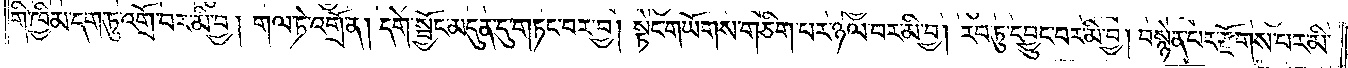གི་ཁྱིམ་དག་ཏུ་འགྲོ་བར་མི་བྱ། གལ་ཏེ་འགྲོ་ན། དགེ་སྦྱོང་མདུན་དུ་གཏང་བར་བྱ། སྟེང་གཡོགས་གཅིག་པར་ཉལ་བར་མི་བྱ། རབ་ཏུ་དབྱུང་བར་མི་བྱ། བསྙེན་པར་རྫོགས་པར་མི་
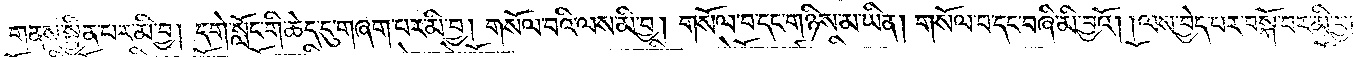བྱ༑ གནས་སྦྱིན་པར་མི་བྱ། དགེ་སློང་གི་ཆེད་དུ་གཞག་པར་མི་བྱ། གསོལ་བའི་ལས་མི་བྱ། གསོལ་བ་དང་གཉིས་མ་ཡིན། གསོལ་བ་དང་བཞི་མི་བྱའོ། །ལས་བྱེད་པར་བསྐོ་བར་མི་བྱ།
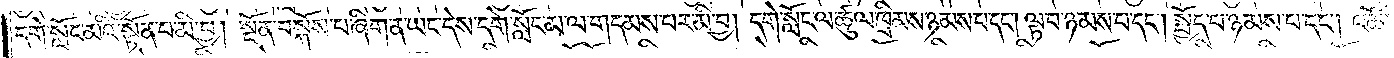དགེ་སློང་མའི་སྟོན་པ་མི་བྱ། སྔོན་བསྐོས་པ་ཞིག་ན་ཡང་དེས་དགེ་སློང་མ་ལ་གདམས་པར་མི་བྱ། དགེ་སློང་ལ་ཚུལ་ཁྲིམས་ཉམས་པ་དང༌། ལྟ་བ་ཉམས་པ་དང༌། སྤྱོད་པ་ཉམས་པ་དང༌། འཚོ་
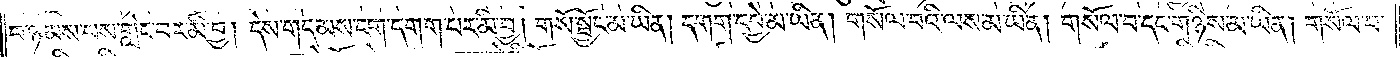བ་ཉམས་པས་གླེང་བར་མི་བྱ། དེས་གདམས་ངག་དགག་པར་མི་བྱ། གསོ་སྦྱོང་མ་ཡིན། དགག་དབྱེ་མ་ཡིན། གསོལ་བའི་ལས་མ་ཡིན། གསོལ་བ་དང་གཉིས་མ་ཡིན། གསོལ་བ་
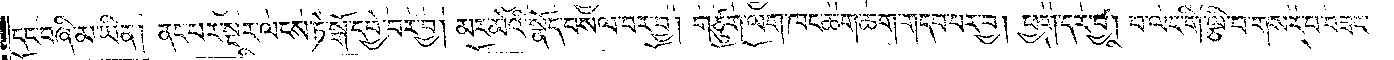དང་བཞི་མ་ཡིན། ནང་པར་སྔར་ལངས་ཏེ་སྒོ་དབྱེ་བར་བྱ། མར་མེའི་སྣོད་བསལ་བར་བྱ། གཙུག་ལག་ཁང་ཆག་ཆག་གདབ་པར་བྱ། ཕྱག་དར་བྱ། བ་ལང་གི་ལྕི་བ་གསར་པ་བཟང་
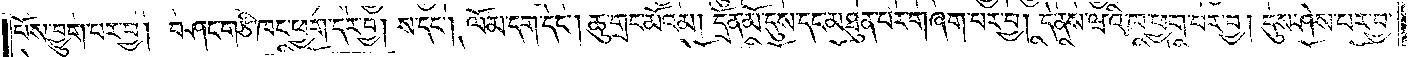པོས་བྱུག་པར་བྱ། བཤང་གཅི་ཁང་ཕྱག་དར་བྱ། ས་དང༌། ལོ་མ་དག་དང༌། ཆུ་གྲང་མོའམ། དྲོན་མོ་དུས་དང་མཐུན་པར་གཞག་པར་བྱ། དེ་ནས་ཝའི་ཁ་ཕྱག་པར་བྱ། དུས་ཤེས་པར་བྱ་
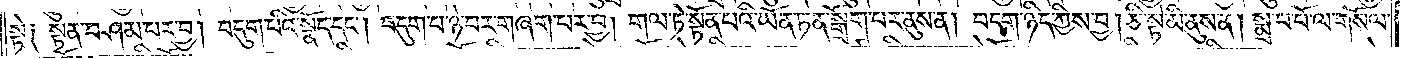སྟེ༑ སྟན་བཤམ་པར་བྱ། བདུག་པའི་སྣོད་དང༌། བདུག་པ་ཉེ་བར་གཞག་པར་བྱ། གལ་ཏེ་སྟོན་པའི་ཡོན་ཏན་སྒྲོག་པར་ནུས་ན། བདག་ཉིད་ཀྱིས་བྱ། ཅི་སྟེ་མི་ནུས་ན། སྨྲ་བ་པོ་ལ་གསོལ་
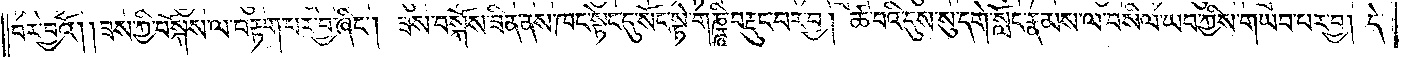བར་བྱའོ། །ཟས་ཀྱི་བསྐོས་ལ་བརྟག་པར་བྱ་ཞིང༌། ཟས་བསྐོས་ཟིན་ནས་ཁང་སྟེང་དུ་སོང་སྟེ་གཎྜཱི་བརྡུང་བར་བྱ། ཚ་བའི་དུས་སུ་དགེ་སློང་རྣམས་ལ་བསིལ་ཡབ་ཀྱིས་གཡབ་པར་བྱ། དེ་
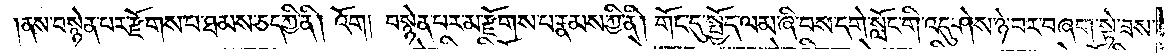ནས་བསྙེན་པར་རྫོགས་པ་ཐམས་ཅད་ཀྱི་ནི། འོག། བསྙེན་པར་མ་རྫོགས་པ་རྣམས་ཀྱི་ནི། གོང་དུ་སྤྱོད་ལམ་ཞི་བས་དགེ་སློང་གི་འདུ་ཤེས་ཉེ་བར་བཞག་སྟེ་ཟས་
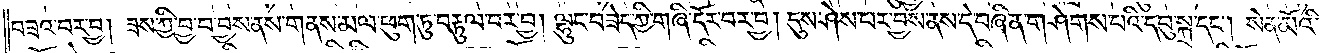བཟའ་བར་བྱ། ཟས་ཀྱི་བྱ་བ་བྱས་ནས་གནས་མལ་ཕུག་ཏུ་བརྟུལ་བར་བྱ། ལྷུང་བཟེད་ཀྱི་གཞི་དོར་བར་བྱ། དུས་ཤེས་པར་བྱས་ནས་དེ་བཞིན་གཤེགས་པའི་དབུ་སྐྲ་དང༌། སེན་མོའི་
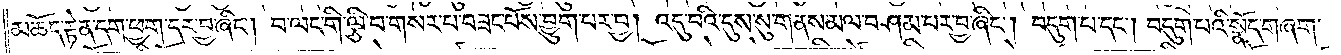མཆོད་རྟེན་དག་ཕྱག་དར་བྱ་ཞིང༌། བ་ལང་གི་ལྕི་བ་གསར་པ་བཟང་པོས་བྱུག་པར་བྱ། འདུ་བའི་དུས་སུ་གནས་མལ་བཤམ་པར་བྱ་ཞིང༌། བདུག་པ་དང༌། བདུག་པའི་སྣོད་གཞག་
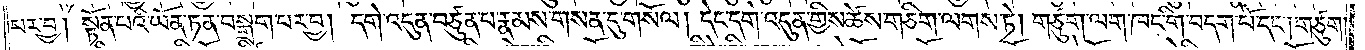པར་བྱ། སྟོན་པའི་ཡོན་ཏན་བསྒྲག་པར་བྱ། དགེ་འདུན་བཙུན་པ་རྣམས་གསན་དུ་གསོལ། དེང་དགེ་འདུན་གྱིས་ཚེས་གཅིག་ལགས་ཏེ། གཙུག་ལག་ཁང་གི་བདག་པོ་དང༌། གཙུག་
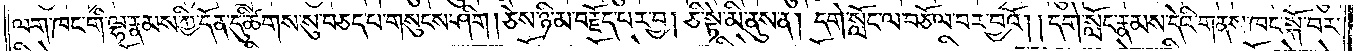ལག་ཁང་གི་ལྷ་རྣམས་ཀྱི་དོན་དུ་ཚིགས་སུ་བཅད་པ་གསུངས་ཤིག །ཅེས་ཉི་མ་བརྗོད་པར་བྱ། ཅི་སྟེ་མི་ནུས་ན། དགེ་སློང་ལ་བཅོལ་བར་བྱའོ། །དགེ་སློང་རྣམས་དེའི་གནས་ཁང་སྐོ་བར་
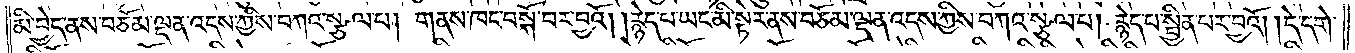མི་བྱེད་ནས་བཅོམ་ལྡན་འདས་ཀྱིས་བཀའ་སྩལ་པ། གནས་ཁང་བསྐོ་བར་བྱའོ། །རྙེད་པ་ཡང་མི་སྟེར་ནས་བཅོམ་ལྡན་འདས་ཀྱིས་བཀའ་སྩལ་པ། རྙེད་པ་སྦྱིན་པར་བྱའོ། །དེ་དགེ་
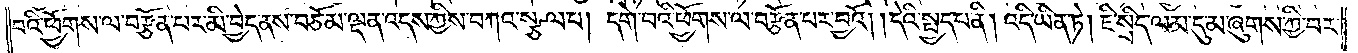བའི་ཕྱོགས་ལ་བརྩོན་པར་མི་བྱེད་ནས་བཅོམ་ལྡན་འདས་ཀྱིས་བཀའ་སྩལ་པ། དགེ་བའི་ཕྱོགས་ལ་བརྩོན་པར་བྱའོ། །དེའི་སྤྱད་པ་ནི། འདི་ཡིན་ཏེ། ཇི་སྲིད་ལམ་དུ་མ་ཞུགས་ཀྱི་བར་
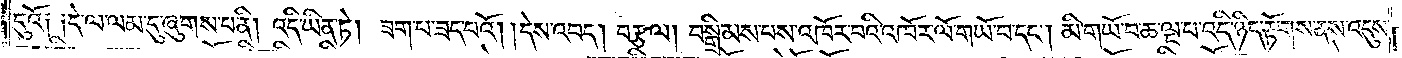དུའོ༑ ༑དེ་ལ་ལམ་དུ་ཞུགས་པ་ནི། འདི་ཡིན་ཏེ། ཟག་པ་ཟད་པའོ། །དེས་འབད། བརྩལ། བསྒྲིམས་པས་འཁོར་བའི་འཁོར་ལོ་གཡོ་བ་དང༌། མི་གཡོ་བ་ཆ་ལྔ་པ་འདི་ཉིད་རྟོགས་ནས་འདུས་
